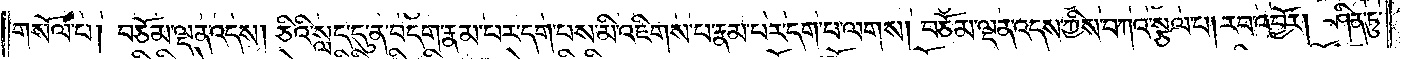གསོལ་པ། བཅོམ་ལྡན་འདས། ཅིའི་སླད་དུ་ན་བདག་རྣམ་པར་དག་པས་མི་འཇིགས་པ་རྣམ་པར་དག་པ་ལགས། བཅོམ་ལྡན་འདས་ཀྱིས་བཀའ་སྩལ་པ། རབ་འབྱོར། ཤིན་ཏུ་
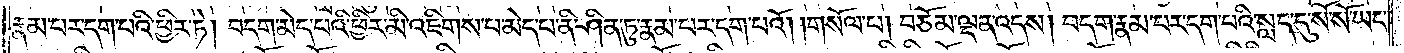རྣམ་པར་དག་པའི་ཕྱིར་ཏེ། བདག་མེད་པའི་ཕྱིར་མི་འཇིགས་པ་མེད་པ་ནི་ཤིན་ཏུ་རྣམ་པར་དག་པའོ། །གསོལ་པ། བཅོམ་ལྡན་འདས། བདག་རྣམ་པར་དག་པའི་སླད་དུ་སོ་སོ་ཡང་
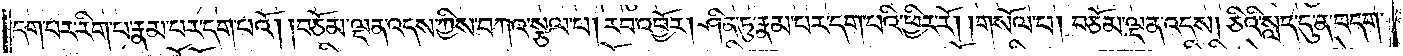དག་པར་རིག་པ་རྣམ་པར་དག་པའོ། །བཅོམ་ལྡན་འདས་ཀྱིས་བཀའ་སྩལ་པ། རབ་འབྱོར། ཤིན་ཏུ་རྣམ་པར་དག་པའི་ཕྱིར་རོ། །གསོལ་པ། བཅོམ་ལྡན་འདས། ཅིའི་སླད་དུ་ན་བདག་
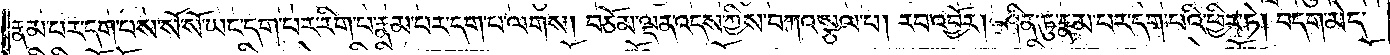རྣམ་པར་དག་པས་སོ་སོ་ཡང་དག་པར་རིག་པ་རྣམ་པར་དག་པ་ལགས། བཅོམ་ལྡན་འདས་ཀྱིས་བཀའ་སྩལ་པ། རབ་འབྱོར། ཤིན་ཏུ་རྣམ་པར་དག་པའི་ཕྱིར་ཏེ། བདག་མེད་
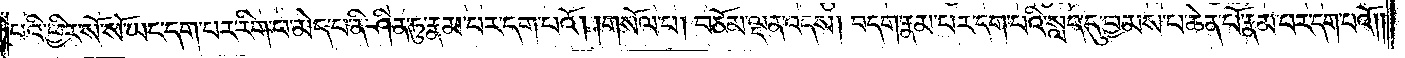པའི་ཕྱིར་སོ་སོ་ཡང་དག་པར་རིག་པ་མེད་པ་ནི་ཤིན་ཏུ་རྣམ་པར་དག་པའོ། །གསོལ་པ། བཅོམ་ལྡན་འདས། བདག་རྣམ་པར་དག་པའི་སླད་དུ་བྱམས་པ་ཆེན་པོ་རྣམ་པར་དག་པའོ། །
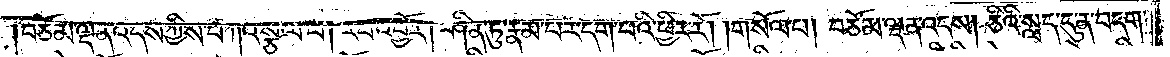བཅོམ་ལྡན་འདས་ཀྱིས་བཀའ་སྩལ་པ། རབ་འབྱོར། ཤིན་ཏུ་རྣམ་པར་དག་པའི་ཕྱིར་རོ། །གསོལ་པ། བཅོམ་ལྡན་འདས། ཅིའི་སླད་དུ་ན་བདག་
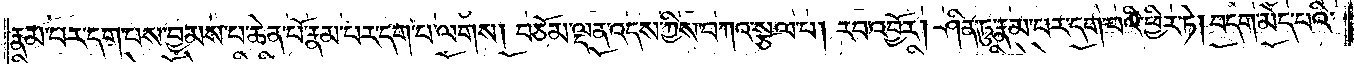རྣམ་པར་དག་པས་བྱམས་པ་ཆེན་པོ་རྣམ་པར་དག་པ་ལགས། བཅོམ་ལྡན་འདས་ཀྱིས་བཀའ་སྩལ་པ། རབ་འབྱོར། ཤིན་ཏུ་རྣམ་པར་དག་པའི་ཕྱིར་ཏེ། བདག་མེད་པའི་
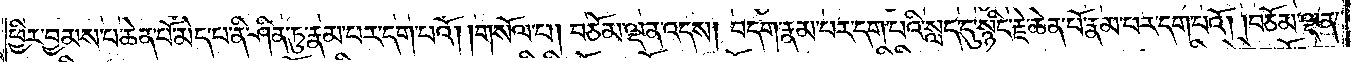ཕྱིར་བྱམས་པ་ཆེན་པོ་མེད་པ་ནི་ཤིན་ཏུ་རྣམ་པར་དག་པའོ། །གསོལ་པ། བཅོམ་ལྡན་འདས། བདག་རྣམ་པར་དག་པའི་སླད་དུ་སྙིང་རྗེ་ཆེན་པོ་རྣམ་པར་དག་པའོ། །བཅོམ་ལྡན་
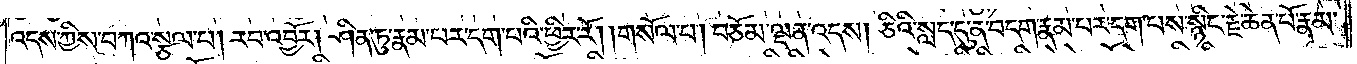འདས་ཀྱིས་བཀའ་སྩལ་པ། རབ་འབྱོར། ཤིན་ཏུ་རྣམ་པར་དག་པའི་ཕྱིར་རོ། །གསོལ་པ། བཅོམ་ལྡན་འདས། ཅིའི་སླད་དུ་ན་བདག་རྣམ་པར་དག་པས་སྙིང་རྗེ་ཆེན་པོ་རྣམ་
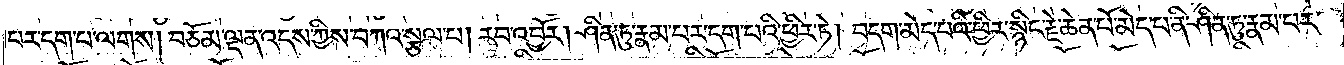པར་དག་པ་ལགས། བཅོམ་ལྡན་འདས་ཀྱིས་བཀའ་སྩལ་པ། རབ་འབྱོར། ཤིན་ཏུ་རྣམ་པར་དག་པའི་ཕྱིར་ཏེ། བདག་མེད་པའི་ཕྱིར་སྙིང་རྗེ་ཆེན་པོ་མེད་པ་ནི་ཤིན་ཏུ་རྣམ་པར་
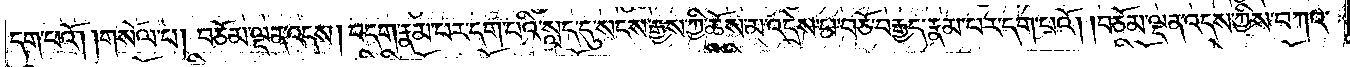དག་པའོ། །གསོལ་པ། བཅོམ་ལྡན་འདས། བདག་རྣམ་པར་དག་པའི་སླད་དུ་སངས་རྒྱས་ཀྱི་ཆོས་མ་འདྲེས་པ་བཅོ་བརྒྱད་རྣམ་པར་དག་པའོ། །བཅོམ་ལྡན་འདས་ཀྱིས་བཀའ་
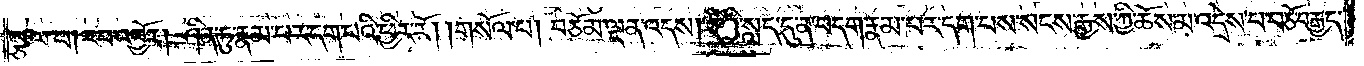སྩལ་པ། རབ་འབྱོར། ཤིན་ཏུ་རྣམ་པར་དག་པའི་ཕྱིར་རོ། །གསོལ་པ། བཅོམ་ལྡན་འདས། ཅིའི་སླད་དུ་ན་བདག་རྣམ་པར་དག་པས་སངས་རྒྱས་ཀྱི་ཆོས་མ་འདྲས་པ་བཅོ་བརྒྱད་
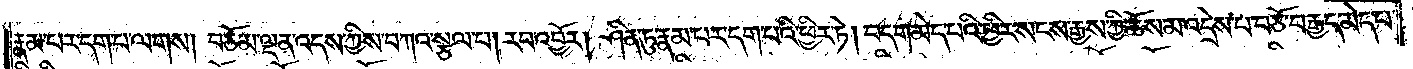རྣམ་པར་དག་པ་ལགས། བཅོམ་ལྡན་འདས་ཀྱིས་བཀའ་སྩལ་པ། རབ་འབྱོར། ཤིན་ཏུ་རྣམ་པར་དག་པའི་ཕྱིར་ཏེ། བདག་མེད་པའི་ཕྱིར་སངས་རྒྱས་ཀྱི་ཆོས་མ་འདྲེས་པ་བཅོ་བརྒྱད་མེད་པ་
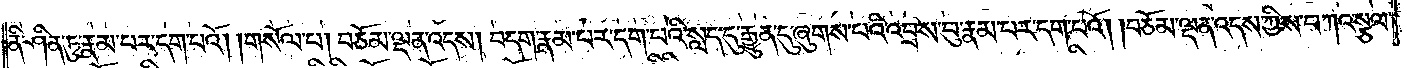ནི་ཤིན་ཏུ་རྣམ་པར་དག་པའོ། །གསོལ་པ། བཅོམ་ལྡན་འདས། བདག་རྣམ་པར་དག་པའི་སླད་དུ་རྒྱུན་དུ་ཞུགས་པའི་འབྲས་བུ་རྣམ་པར་དག་པའོ། །བཅོམ་ལྡན་འདས་ཀྱིས་བཀའ་སྩལ་
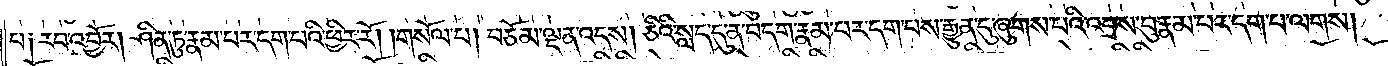པ༑ རབ་འབྱོར། ཤིན་ཏུ་རྣམ་པར་དག་པའི་ཕྱིར་རོ། །གསོལ་པ། བཅོམ་ལྡན་འདས། ཅིའི་སླད་དུ་ན་བདག་རྣམ་པར་དག་པས་རྒྱུན་དུ་ཞུགས་པའི་འབྲས་བུ་རྣམ་པར་དག་པ་ལགས།
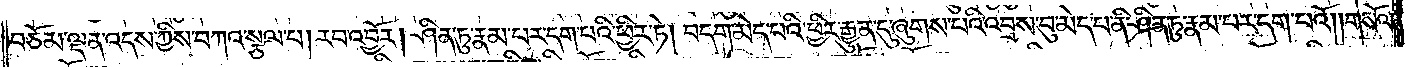བཅོམ་ལྡན་འདས་ཀྱིས་བཀའ་སྩལ་པ། རབ་འབྱོར། ཤིན་ཏུ་རྣམ་པར་དག་པའི་ཕྱིར་ཏེ། བདག་མེད་པའི་ཕྱིར་རྒྱུན་དུ་ཞུགས་པའི་འབྲས་བུ་མེད་པ་ནི་ཤིན་ཏུ་རྣམ་པར་དག་པའོ། །གསོལ་
